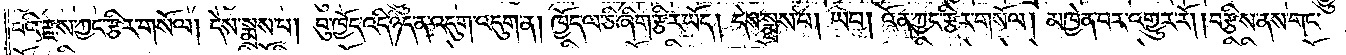བའི་རྫས་ཀྱང་རྩིར་གསོལ། དེས་སྨྲས་པ། བུ་ཁྱོད་འདི་ཉིད་ན་འདུག་འདུག་ན། ཁྱོད་ལ་ཅི་ཞིག་རྩིར་ཡོད། དེས་སྨྲས་པ། ཡབ། འོན་ཀྱང་རྩིར་གསོལ། མཁྱེན་པར་འགྱུར་རོ། །བརྩིས་ནས་གང་
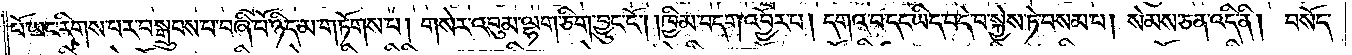པོ་ཡང་རིགས་པར་བསྒྲུབས་པ་བཞི་པོ་ཉིད་མ་གཏོགས་པ། གསེར་འབུམ་ལྷག་ཅིག་བྱུང་ངོ༌། །ཁྱིམ་བདག་འབྱོར་པ། དགའ་བ་དང་ཡིད་བདེ་བ་སྐྱེས་ཏེ་བསམ་པ། སེམས་ཅན་འདི་ནི། བསོད་
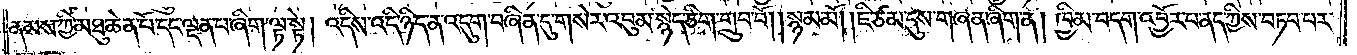ནམས་ཀྱི་མཐུ་ཆེན་པོ་དང་ལྡན་པ་ཞིག་ལྟ་སྟེ། འདིས་འདི་ཉིད་ན་འདུག་བཞིན་དུ་གསེར་འབུམ་སྙེད་ཅིག་གྲུབ་བོ། །སྙམ་མོ། །ཇི་ཙམ་དུས་གཞན་ཞིག་ན། ཁྱིམ་བདག་འབྱོར་པ་ནད་ཀྱིས་བཏབ་པར་
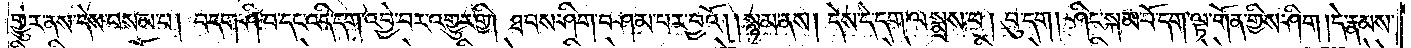གྱུར་ནས་དེས་བསམ་པ། བདག་ཤི་བ་དང་འདི་དག་འབྱེ་བར་འགྱུར་གྱི། ཐབས་ཤིག་བཤམ་པར་བྱའོ། །སྙམ་ནས། དེས་དེ་དག་ལ་སྨྲས་པ། བུ་དག། ཤིང་སྐམ་པོ་དག་ལྟ་གོན་གྱིས་ཤིག །དེ་རྣམས་
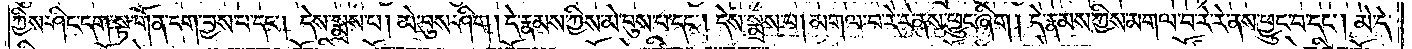ཀྱིས་ཤིང་དག་སྟ་གོན་དག་བྱས་པ་དང༌། དེས་སྨྲས་པ། མེ་བུས་ཤིག །དེ་རྣམས་ཀྱིས་མེ་བུས་པ་དང༌། དེས་སྨྲས་པ། མགལ་བ་རེ་རེ་ནས་ཕྱུང་ཞིག། དེ་རྣམས་ཀྱིས་མགལ་བ་རེ་རེ་ནས་ཕྱུང་བ་དང༌། མེ་དེ་
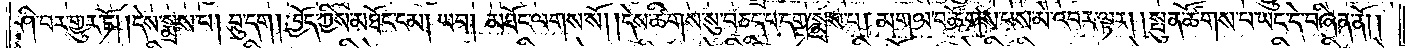ཤི་བར་གྱུར་ཏོ། །དེས་སྨྲས་པ། བུ་དག། ཁྱོད་ཀྱིས་མཐོང་ངམ། ཡབ། མཐོང་ལགས་སོ། །དེས་ཚིགས་སུ་བཅད་པ་དག་སྨྲས་པ། མགལ་བ་ཚོགས་པས་མེ་འབར་ལྟར། །སྤུན་ཚོགས་པ་ཡང་དེ་བཞིན་ནོ། །
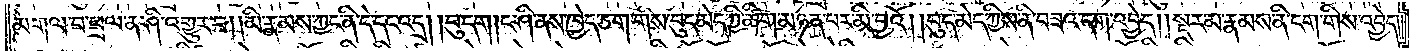མགལ་བ་ཕྲལ་ན་ཤི་འགྱུར་བ། །མི་རྣམས་ཀྱང་ནི་དེ་དང་འདྲ། །བུ་དག །ང་ཤི་ནས་ཁྱེད་ཅག་གིས་བུད་མེད་ཀྱི་ཚིག་མཉན་པར་མི་བྱའོ། །བུད་མེད་ཀྱིས་ནི་བཟའ་དག་འབྱེད། །སྔར་མ་རྣམས་ནི་ངག་གིས་འབྱེད་
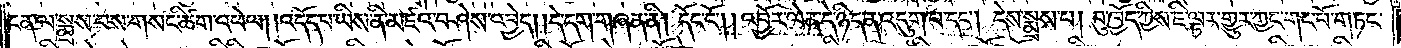ངན་ལ་སྨྲས་པས་གསང་ཚིག་འཕེལ། །འདོད་པ་ཡིས་ནི་མཛའ་བཤེས་འབྱེད། །དེ་དག་གཞན་ནི། དོང་ངོ༌། །འབྱོར་ལེན་དེ་ཉིད་ན་འདུག་པ་དང༌། དེས་སྨྲས་པ། བུ་ཁྱོད་ཀྱིས་ཇི་ལྟར་གྱུར་ཀྱང་གང་པོ་གཏང་
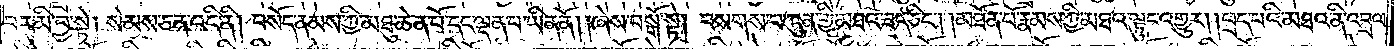བར་མི་བྱ་སྟེ། སེམས་ཅན་འདི་ནི། བསོད་ནམས་ཀྱི་མཐུ་ཆེན་པོ་དང་ལྡན་པ་ཡིན་ནོ། །ཞེས་བསྒོ་སྟེ། བསགས་པ་ཀུན་གྱི་མཐའ་ཟད་ཅིང༌། །མཐོན་པོ་རྣམས་ཀྱི་མཐའ་ལྟུང་འགྱུར། །ཕྲད་པའི་མཐའ་ནི་འབྲལ་
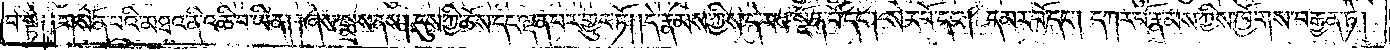བ་སྟེ༑ ༑གསོན་པའི་མཐའ་ནི་འཆི་བ་ཡིན། །ཞེས་སྨྲས་ནས། དུས་ཀྱི་ཆོས་དང་ལྡན་པར་གྱུར་ཏོ། །དེ་རྣམས་ཀྱིས་དེ་རས་སྔོན་པོ་དང༌། སེར་པོ་དང༌། དམར་པོ་དང༌། དཀར་པོ་རྣམས་ཀྱིས་ཁྱོགས་བརྒྱན་ཏེ།
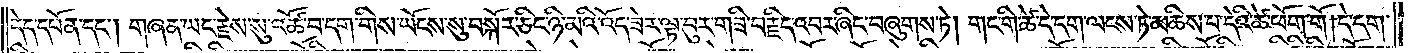དེད་དཔོན་དང༌། གཞན་ཡང་རྗེས་སུ་འཚོ་བ་དག་གིས་ཡོངས་སུ་བསྐོར་ཅིང་ཉི་མའི་འོད་ཟེར་ལྟ་བུར་གཟི་བརྗིད་འབར་ཞིང་བཞུགས་ཏེ། གང་གི་ཚེ་དེ་དག་ལངས་ཏེ་མཆིས་པ་དེའི་ཚེ་ཕོག་གོ། དེ་དག་
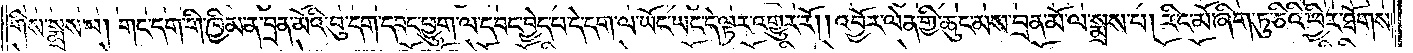གིས་སྨྲས་པ། གང་དག་གི་ཁྱིམ་ན་བྲན་མོའི་བུ་དག་དབང་ཕྱུག་ལ་དབང་བྱེད་པ་དེ་དག་ལ་ཡོང་ཡང་དེ་ལྟར་འགྱུར་རོ། །འབྱོར་ལེན་གྱི་ཆུང་མས་བྲན་མོ་ལ་སྨྲས་པ། རིང་མོ་ཞིག་ཏུ་ཅིའི་ཕྱིར་ཐོགས་
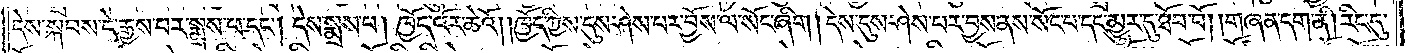དེས་སྐབས་དེ་རྒྱས་པར་སྨྲས་པ་དང༌། དེས་སྨྲས་པ། ཁྱོད་འོར་ཆེའོ། །ཁྱོད་ཀྱིས་དུས་ཤེས་པར་བྱོས་ལ་སོང་ཞིག །དེས་དུས་ཤེས་པར་བྱས་ནས་སོང་པ་དང་མྱུར་དུ་ཐོབ་བོ། །གཞན་དག་ནི། རིང་དུ་
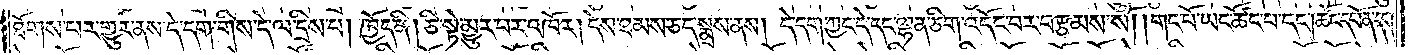ཐོགས་པར་གྱུར་ནས་དེ་དག་གིས་དེ་ལ་དྲིས་པ། ཁྱོད་ནི། ཅི་སྟེ་མྱུར་བར་འཁོར། དེས་ཐམས་ཅད་སྨྲས་ནས། དེ་དག་ཀྱང་དེ་དང་ལྷན་ཅིག་འདོང་བར་བརྩམས་སོ། །གང་པོ་ཡང་ཚོང་པ་དང༌། ཚོང་དཔོན་དང༌།
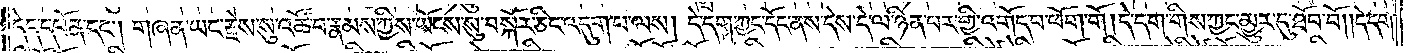དེད་དཔོན་དང༌། གཞན་ཡང་རྗེས་སུ་འཚོ་བ་རྣམས་ཀྱིས་ཡོངས་སུ་བསྐོར་ཅིང་འདུག་པ་ལས། དེ་དག་ཀྱང་དོང་ནས་དེས་དེ་ལ་ཉིན་པར་གྱི་འགོད་པ་ཕོག་གོ །དེ་དག་གིས་ཀྱང་མྱུར་དུ་ཐོབ་བོ། །དེ་དག་
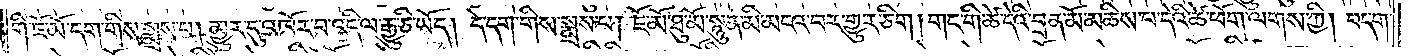གི་ཇོ་མོ་དག་གིས་སྨྲས་པ། མྱུར་དུ་འཁོར་བ་འདི་ལ་རྒྱུ་ཅི་ཡོད། དེ་དག་གིས་སྨྲས་པ། ཇོ་མོ་ཐུ་མོ་སྙུན་མི་མངའ་བར་གྱུར་ཅིག། གང་གི་ཚེ་དེའི་བྲན་མོ་མཆིས་པ་དེའི་ཚེ་ཕོག་ལགས་ཀྱི། བདག་
